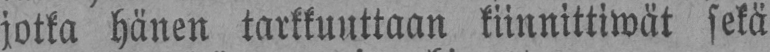jotka hänen tarkkuuttaan kiinnittiwät sekä
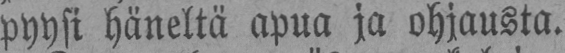pyysi häneltä apua ja ohjausta.
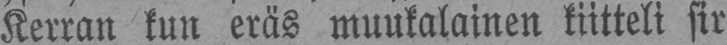Kerran kun eräs muukalainen kiitteli sir
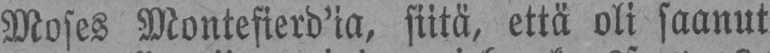Moses Montefierd'ia, siitä, että oli saanut
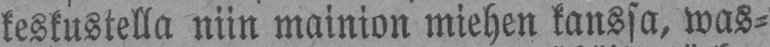keskustella niin mainion miehen kanssa, was-
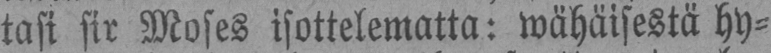tasi sir Moses isottelematta: wähäisestä hy-
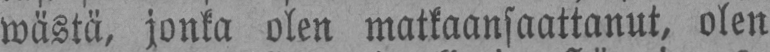wästä, jonka olen matkaansaattanut, olen
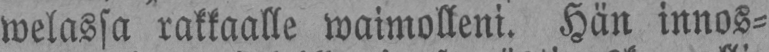welassa rakkaalle waimolleni. Hän innos-
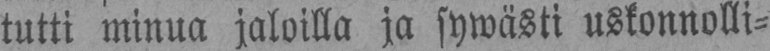tutti minua jaloilla ja sywästi uskonnolli-
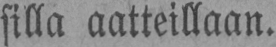silla aatteillaan.
